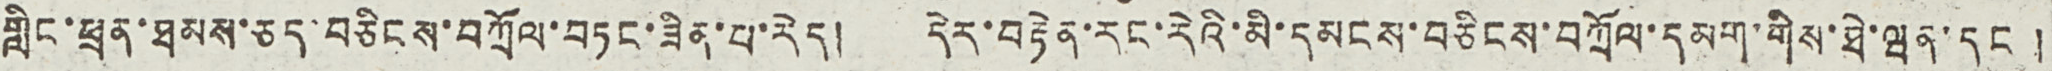གླིང་ཕྲན་ཐམས་ཅད་བཅིངས་བཀྲོལ་བཏང་ཟིན་པ་རེད། དེར་བརྟེན་རང་རེའི་མི་དམངས་བཅིངས་བཀྲོལ་དམག་གིས་ཐེ་ཝན་དང །
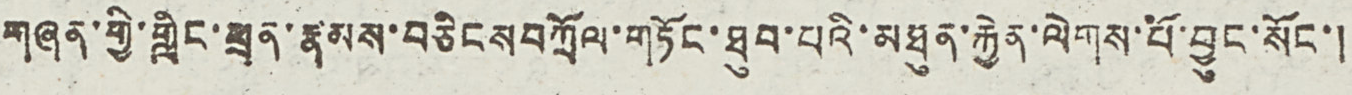གཞན་གྱི་གླིང་ཕྲན་རྣམས་བཅིངས བཀྲོལ་གཏོང་ཐུབ་པའི་མཐུན་རྐྱེན་ལེགས་པོ་བྱུང་སོང་།
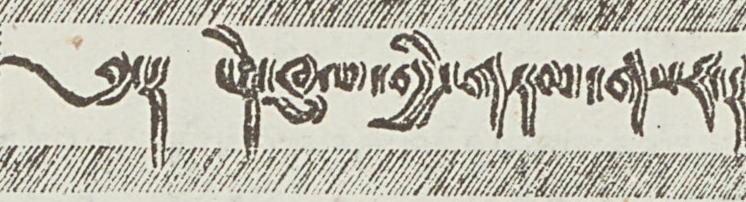༄༅། དེ་ཁུལ་གྱི་གཏམ་གསར།
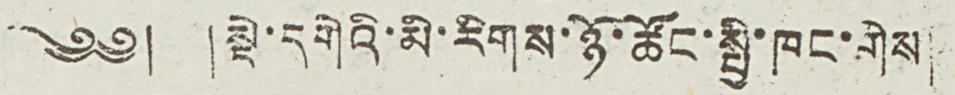༄༅། །སྡེ་དགེའི་མི་རིགས་ཉོ་ཚོང་སྤྱི་ཁང་གིས།
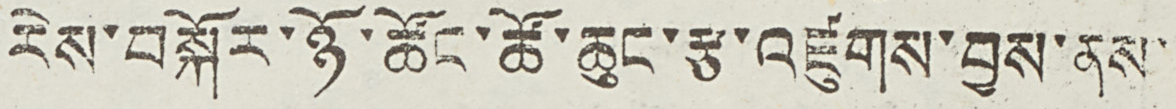རེས་བསྐོར་ཉོ་ཚོང་ཚོ་ཆུང་རྩ་འཛུགས་བྱས་ནས་
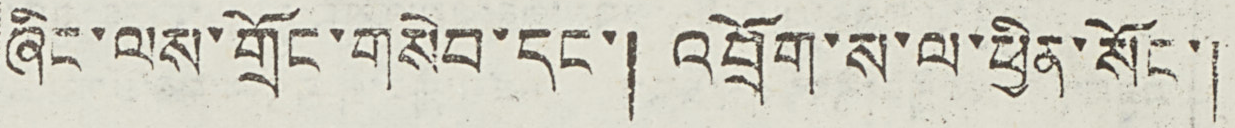ཞིང་ལས་གྲོང་གསེབ་དང་། འབྲོག་ས་ལ་ཕྱིན་སོང་།
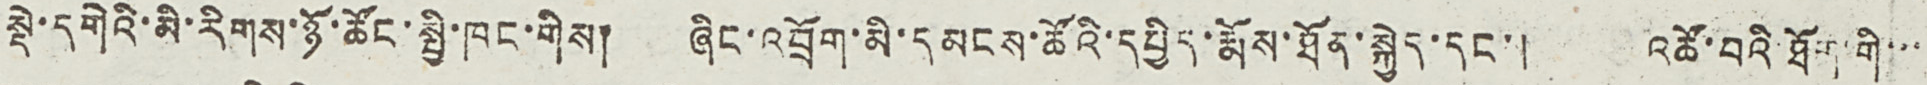སྡེ་དགེའི་མི་རིགས་ཉོ་ཚོང་སྤྱི་ཁང་གིས། ཞིང་འབྲོག་མི་དམངས་ཚོའི་དཔྱིད་རྨོས་ཐོན་སྐྱེད་དང་། འཚོ་བའི་ཐོག་གི་་་
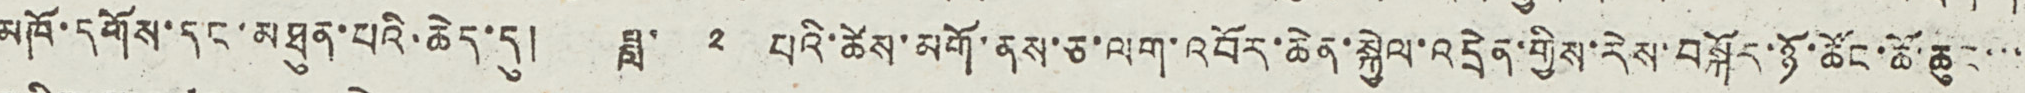མཁོ་དགོས་དང་མཐུན་པའི་ཆེད་དུ། ཟླ་ ༢ པའི་ཚེས་མགོ་ནས་ཅ་ལག་འབོར་ཆེན་སྐྱེལ་འདྲེན་གྱིས་རེས་བསྐོར་ཉོ་ཚོང་ཚོ་ཆུང་་་
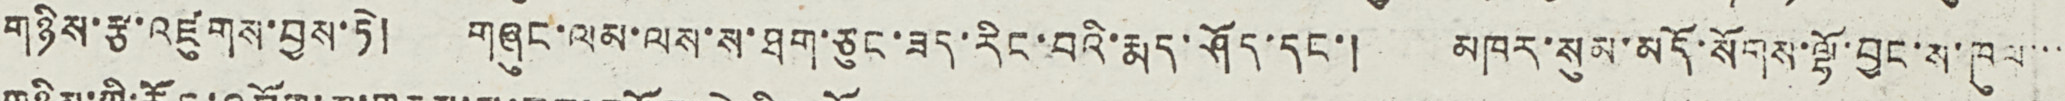གཉིས་རྩ་འཛུགས་བྱས་ཏེ། གཞུང་ལམ་ལས་ས་ཐག་ཅུང་ཟད་རིང་བའི་རྨད་ཤོད་དང་། མཁར་སུམ་མདོ་སོགས་ལྷོ་བྱང་ས་ཁུལ་་་
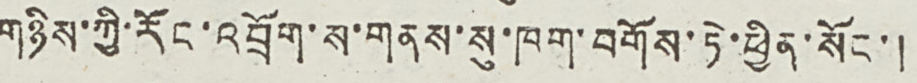གཉིས་ཀྱི་རོང་འབྲོག་ས་གནས་སུ་ཁག་བགོས་ཏེ་ཕྱིན་སོང་།
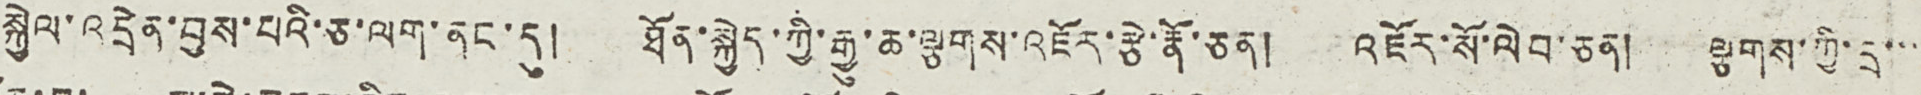སྐྱེལ་འདྲེན་བྱས་པའི་ཅ་ལག་ནང་དུ། ཐོན་སྐྱེད་ཀྱི་རྒྱུ་ཆ་ལྕགས་འཇོར་རྩེ་རྣོ་ཅན། འཇོར་སོ་ལེབ་ཅན། ལྕགས་ཀྱི་དྲ་་་
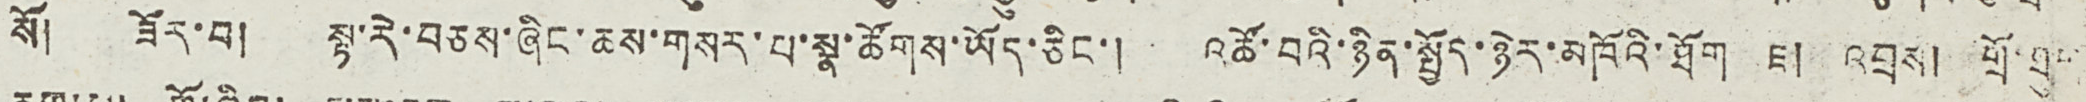སོ། ཟོར་བ། སྟ་རེ་བཅས་ཞིང་ཆས་གསར་པ་སྣ་ཚོགས་ཡོད་ཅིང་། འཚོ་བའི་ཉིན་སྤྱོད་ཉེར་མཁོའི་ཐོག ཇ། འབྲས། གྲོ་ཐུག
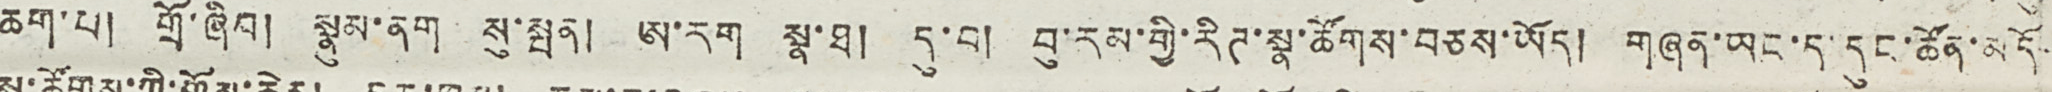ཆག་པ། གྲོ་ཞིབ། སྣུམ་ནག སུ་སྤན། ཨ་རག སྣ་ཐ། དུ་བ། བུ་རམ་གྱི་རིཊ་སྣ་ཚོགས་བཅས་ཡོད། གཞན་ཡང་ད་དུང་ཚོན་མདོ
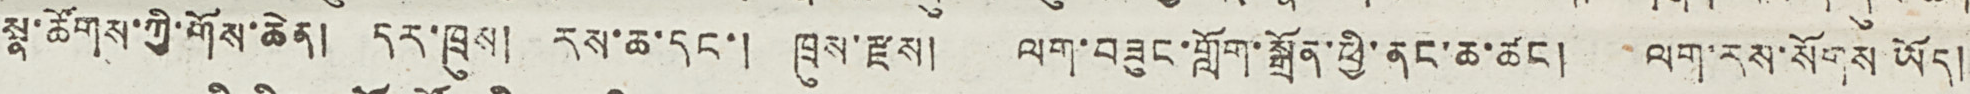སྣ་ཚོགས་ཀྱི་གོས་ཆེན། དར་ཁྲུས། རས་ཆ་དང་། ཁྲུས་རྫས། ལག་བཟུང་གློག་སྒྲོན་ཕྱི་ནང་ཆ་ཚང ། ལག་རས་སོགས ཡོད།
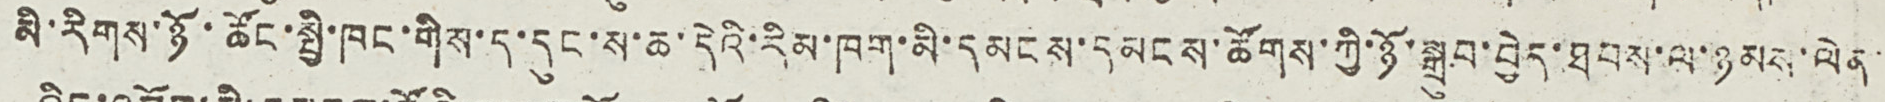མི་རིགས་ཉོ་ཚོང་སྤྱི་ཁང་གིས་ད་དུང་ས་ཆ་དེའི་རིམ་ཁག་མི་དམངས་ཚོགས་ཀྱི་ཉོ་སྒྲུབ་བྱེད་ཐབས་ལ་ཉམས་ལེན་
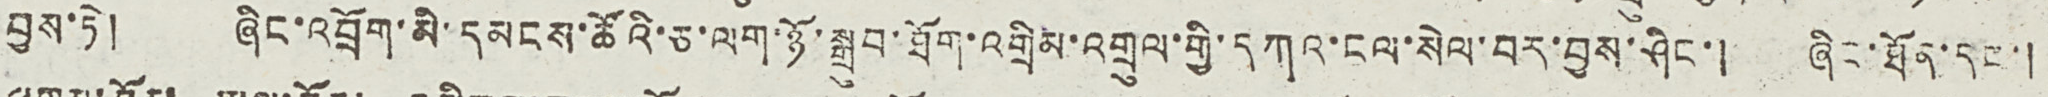བྱས་ཏེ། ཞིང་འབྲོག་མི་དམངས་ཚོའི་ཅ་ལག་ཉོ་སྒྲུབ་ཐོག་འགྲིམ་འགྲུལ་གྱི་དཀའ་ངལ་སེལ་བར་བྱས་ཤིང་། ཞིང་ཐོན་དང་།
